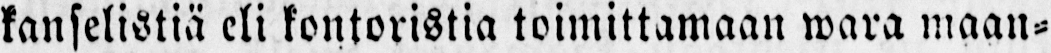kanselistiä eli kontoristia toimittamaan wara maan-
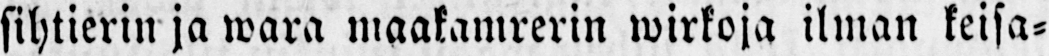sihtierin ja wara maakamrerin wirkoja ilman keisa-
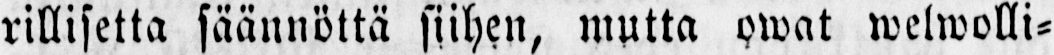rillisetta säännöttä siihen, mutta owat welwolli-
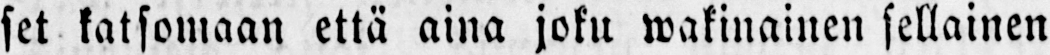set katsomaan että aina joku wakinainen sellainen
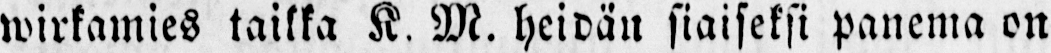wirkamies taikka K. M. heidän siaiseksi panema on
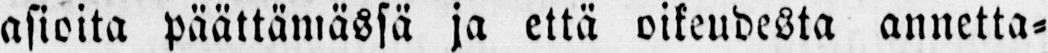asioita päättämässä ja että oikeudesta annetta-
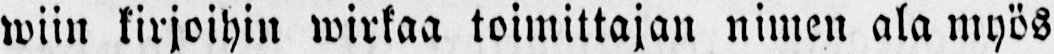wiin kirjoihin wirkaa toimittajan nimen ala myös
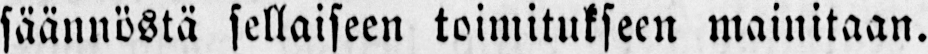säännöstä sellaiseen toimitukseen mainitaan.
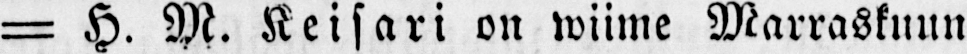— H. M. Keisari on wiime Marraskuun
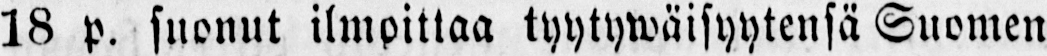18 p. suonut ilmoittaa tyytywäisyytensä Suomen
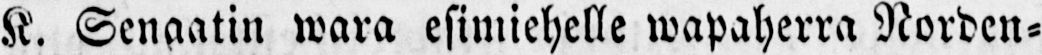K. Senaatin wara esimiehelle wapaherra Norden-
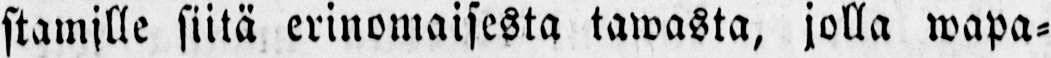stamille siitä erinomaisesta tawasta, jolla wapa-
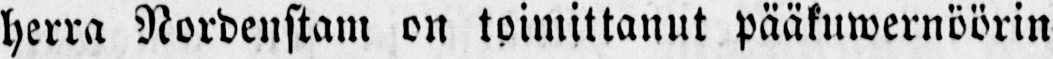herra Nordenstam on toimittanut pääkuwernöörin
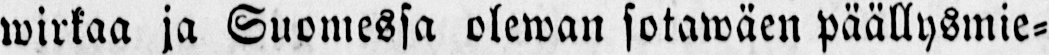wirkaa ja Suomessa olewan sotawäen päällysmie-
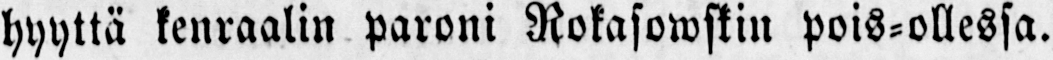hyyttä kenraalin paroni Rokasowskin pois-ollessa.
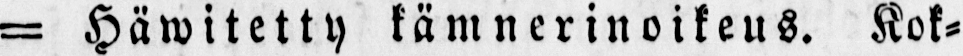— Häwitetty kämnerinoikeus. Kok-
